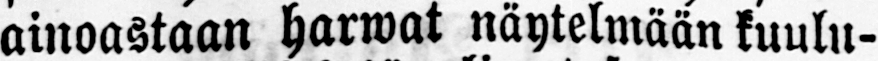ainoastaan Harwat näytelmään kuulu-
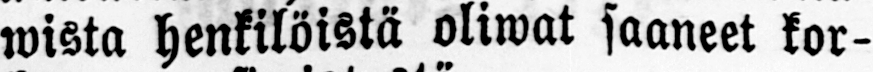wista henkilöistä oliwat saaneet kor-
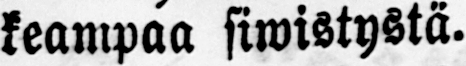keampaa siwistystä.
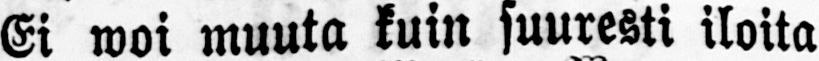Ei woi muuta kuin suuresti iloita
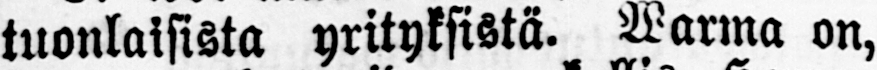tuonlaisista yrityksistä. Warma on,
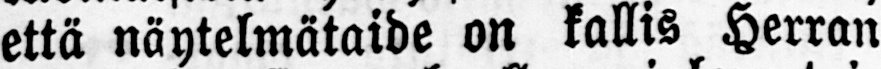että näytelmätaide on kallis Herran
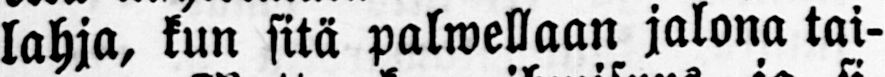lahja, kun sitä palwellaan jalona tai-
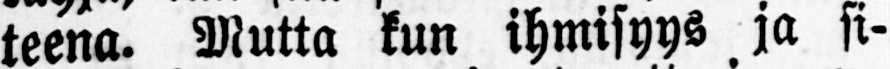teena. Mutta kun ihmisyys ja si-
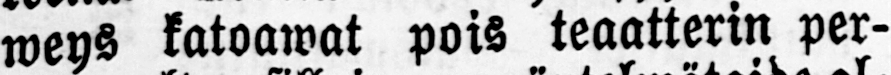weys katoawat pois teaatterin per-
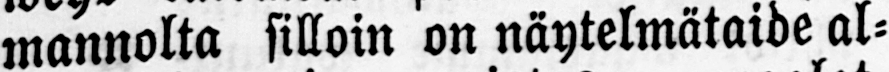mannolta silloin on näytelmätaide al-
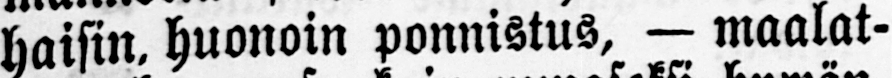haisin, huonoin ponnistus, — maalat-
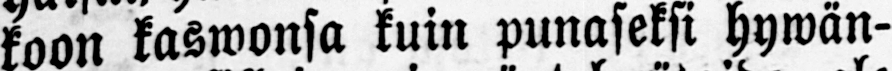koon kaswonsa kuin punaseksi hywän-
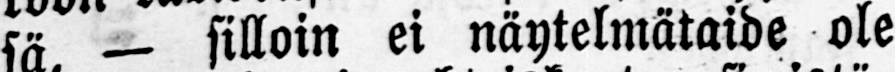rä — silloin ei näytelmätaide ole
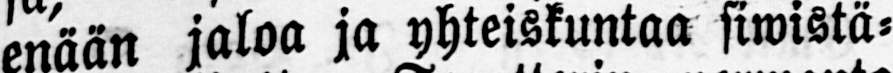enään jaloa ja yhteiskuntaa siwistä-
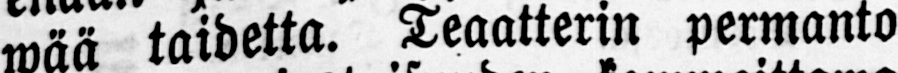wää taidetta. Teaatterin permanto
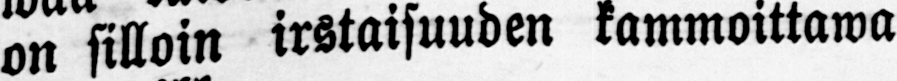on silloin irstaisuuden kammoittawa
